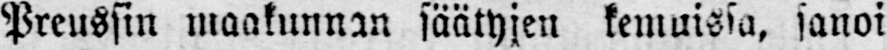Preussin maakunnan säätyjen kemuisia, sanoi
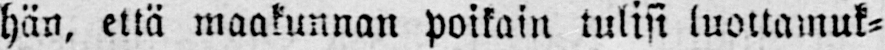hän, että maakunnan poikain tulisi luottamuk-
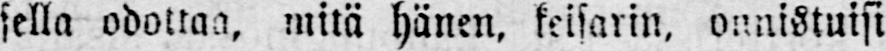sella odottaa, mitä hänen, keisarin, onnistuisi
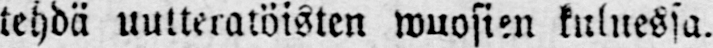tehdä uutteratöisten wuosien kuluessa.
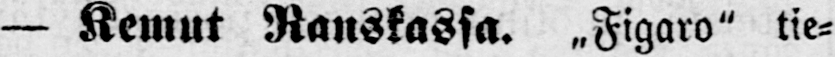— Kemut Ranskassa. ˶ Figaro" tie-
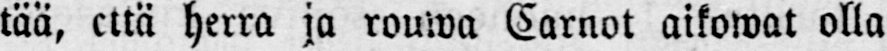tää, että herra ja rouwa Carnot aikowat olla
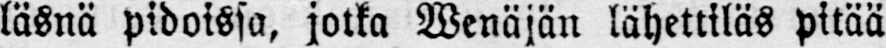läsnä pidoissa, jotka Wenäjän lähettiläs pitää
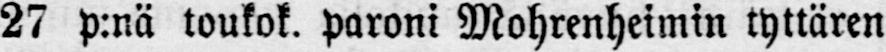27 p:nä toukok. paroni Mohrenheimin tyttären
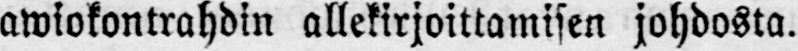awiokontrahdin allekirjoittamisen johdosta.
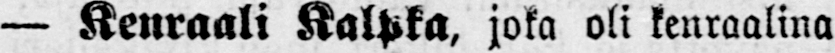— Kenraali Kalpka, joka oli kenraalina
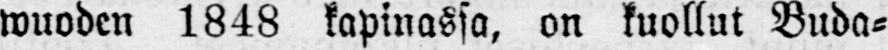wuoden 1848 kapinassa, on kuollut Buda-
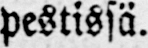pestissä.
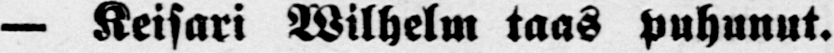— Keisari Wilhelm taas puhunut.
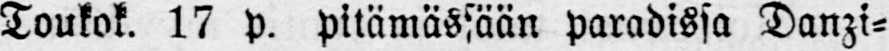Toukok. 17 p. pitämässään paradissa Danzi-
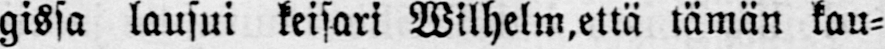gissa lausui keisari Wilhelm, että tämän kau-
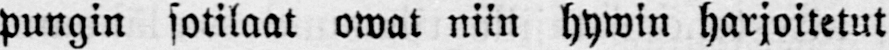pungin sotilaat owat niin hywin harjoitetut
